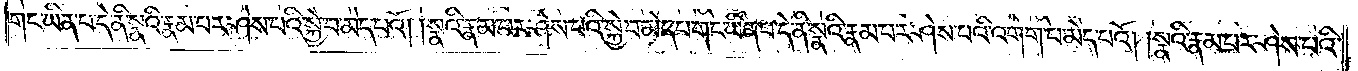གང་ཡིན་པ་དེ་ནི་སྣའི་རྣམ་པར་ཤེས་པའི་སྐྱེ་བ་མེད་པའོ། །སྣའི་རྣམ་པར་ཤེས་པའི་སྐྱེ་བ་མེད་པ་གང་ཡིན་པ་དེ་ནི་སྣའི་རྣམ་པར་ཤེས་པའི་འགག་པ་མེད་པའོ། །སྣའི་རྣམ་པར་ཤེས་པའི་
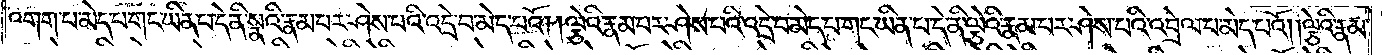འགག་པ་མེད་པ་གང་ཡིན་པ་དེ་ནི་སྣའི་རྣམ་པར་ཤེས་པའི་འདྲེ་བ་མེད་པའོ། །ལྕེའི་རྣམ་པར་ཤེས་པའི་འདྲེ་བ་མེད་པ་གང་ཡིན་པ་དེ་ནི་ལྕེའི་རྣམ་པར་ཤེས་པའི་འབྲེལ་པ་མེད་པའོ། །ལྕེའི་རྣམ་
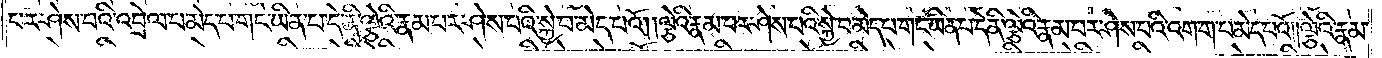པར་ཤེས་པའི་འབྲེལ་པ་མེད་པ་གང་ཡིན་པ་དེ་ནི་ལྕེའི་རྣམ་པར་ཤེས་པའི་སྐྱེ་བ་མེད་པའོ། །ལྕེའི་རྣམ་པར་ཤེས་པའི་སྐྱེ་བ་མེད་པ་གང་ཡིན་པ་དེ་ནི་ལྕེའི་རྣམ་པར་ཤེས་པའི་འགག་པ་མེད་པའོ། །ལྕེའི་རྣམ་
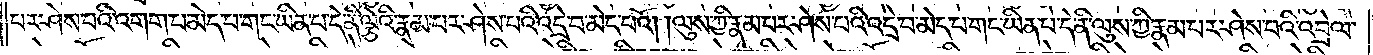པར་ཤེས་པའི་འགག་པ་མེད་པ་གང་ཡིན་པ་དེ་ནི་ལྕེའི་རྣམ་པར་ཤེས་པའི་འདྲེ་བ་མེད་པའོ། །ལུས་ཀྱི་རྣམ་པར་ཤེས་པའི་འདྲེ་བ་མེད་པ་གང་ཡིན་པ་དེ་ནི་ལུས་ཀྱི་རྣམ་པར་ཤེས་པའི་འབྲེལ་
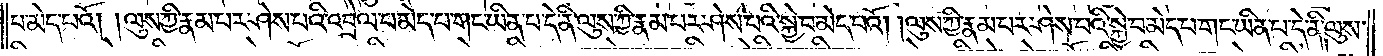པ་མེད་པའོ། །ལུས་ཀྱི་རྣམ་པར་ཤེས་པའི་འབྲེལ་བ་མེད་པ་གང་ཡིན་པ་དེ་ནི་ལུས་ཀྱི་རྣམ་པར་ཤེས་པའི་སྐྱེ་བ་མེད་པའོ། །ལུས་ཀྱི་རྣམ་པར་ཤེས་པའི་སྐྱེ་བ་མེད་པ་གང་ཡིན་པ་དེ་ནི་ལུས་
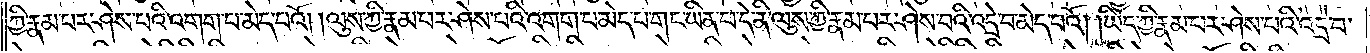ཀྱི་རྣམ་པར་ཤེས་པའི་འགག་པ་མེད་པའོ། །ལུས་ཀྱི་རྣམ་པར་ཤེས་པའི་འགག་པ་མེད་པ་གང་ཡིན་པ་དེ་ནི་ལུས་ཀྱི་རྣམ་པར་ཤེས་པའི་འདྲེ་བ་མེད་པའོ། །ཡིད་ཀྱི་རྣམ་པར་ཤེས་པའི་འདྲེ་བ་
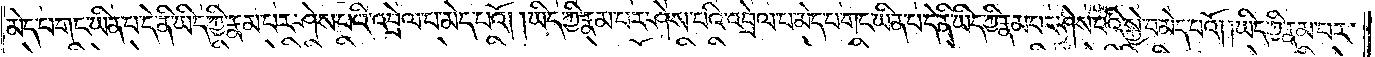མེད་པ་གང་ཡིན་པ་དེ་ནི་ཡིད་ཀྱི་རྣམ་པར་ཤེས་པའི་འབྲེལ་བ་མེད་པའོ། །ཡིད་ཀྱི་རྣམ་པར་ཤེས་པའི་འབྲེལ་བ་མེད་པ་གང་ཡིན་པ་དེ་ནི་ཡིད་ཀྱི་རྣམ་པར་ཤེས་པའི་སྐྱེ་བ་མེད་པའོ། །ཡིད་ཀྱི་རྣམ་པར་
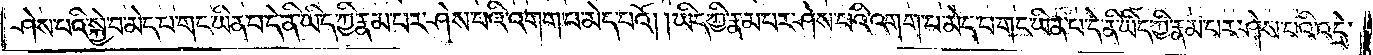ཤེས་པའི་སྐྱེ་བ་མེད་པ་གང་ཡིན་པ་དེ་ནི་ཡིད་ཀྱི་རྣམ་པར་ཤེས་པའི་འགག་པ་མེད་པའོ། །ཡིད་ཀྱི་རྣམ་པར་ཤེས་པའི་འགག་པ་མེད་པ་གང་ཡིན་པ་དེ་ནི་ཡིད་ཀྱི་རྣམ་པར་ཤེས་པའི་འདྲེ་
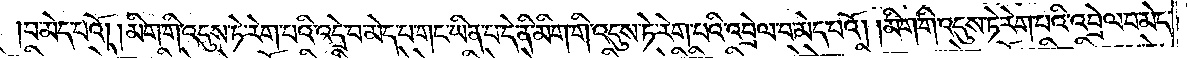བ་མེད་པའོ། །མིག་གི་འདུས་ཏེ་རེག་པའི་འདྲེ་བ་མེད་པ་གང་ཡིན་པ་དེ་ནི་མིག་གི་འདུས་ཏེ་རེག་པའི་འབྲེལ་བ་མེད་པའོ། །མིག་གི་འདུས་ཏེ་རེག་པའི་འབྲེལ་བ་མེད་
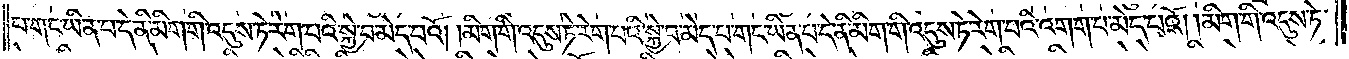པ་གང་ཡིན་པ་དེ་ནི་མིག་གི་འདུས་ཏེ་རེག་པའི་སྐྱེ་བ་མེད་པའོ། །མིག་གི་འདུས་ཏེ་རེག་པའི་སྐྱེ་བ་མེད་པ་གང་ཡིན་པ་དེ་ནི་མིག་གི་འདུས་ཏེ་རེག་པའི་འགག་པ་མེད་པའོ། །མིག་གི་འདུས་ཏེ་
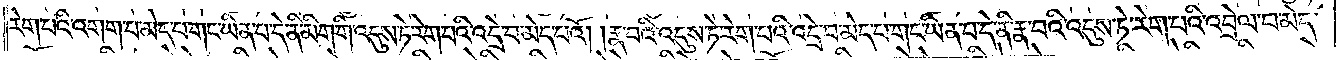རེག་པའི་འགག་པ་མེད་པ་གང་ཡིན་པ་དེ་ནི་མིག་གི་འདུས་ཏེ་རེག་པའི་འདྲེ་བ་མེད་པའོ། །རྣ་པའི་འདུས་ཏེ་རེག་པའི་འདྲེ་བ་མེད་པ་གང་ཡིན་པ་དེ་ནི་རྣ་བའི་འདུས་ཏེ་རེག་པའི་འབྲེལ་བ་མེད་
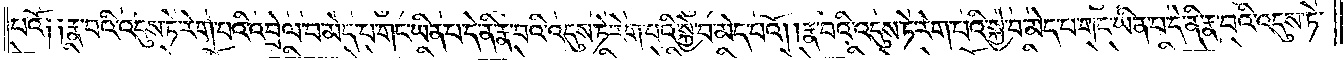པའོ། །རྣ་བའི་འདུས་ཏེ་རེག་པའི་འབྲེལ་བ་མེད་པ་གང་ཡིན་པ་དེ་ནི་རྣ་བའི་འདུས་ཏེ་རེག་པའི་སྐྱེ་བ་མེད་པའོ། །རྣ་བའི་འདུས་ཏེ་རེག་པའི་སྐྱེ་བ་མེད་པ་གང་ཡིན་པ་དེ་ནི་རྣ་བའི་འདུས་ཏེ་
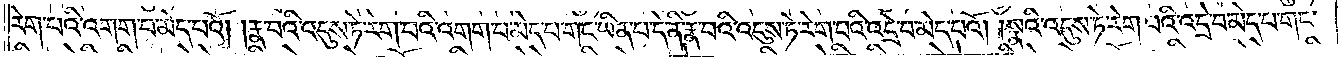རེག་པའི་འགག་པ་མེད་པའོ། །རྣ་བའི་འདུས་ཏེ་རེག་པའི་འགག་པ་མེད་པ་གང་ཡིན་པ་དེ་ནི་རྣ་བའི་འདུས་ཏེ་རེག་པའི་འདྲེ་བ་མེད་པའོ། །སྣའི་འདུས་ཏེ་རེག་པའི་འདྲེ་བ་མེད་པ་གང་
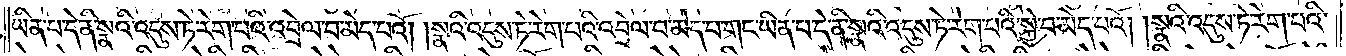ཡིན་པ་དེ་ནི་སྣའི་འདུས་ཏེ་རེག་པའི་འབྲེལ་བ་མེད་པའོ། །སྣའི་འདུས་ཏེ་རེག་པའི་འབྲེལ་བ་མེད་པ་གང་ཡིན་པ་དེ་ནི་སྣའི་འདུས་ཏེ་རེག་པའི་སྐྱེ་བ་མེད་པའོ། །སྣའི་འདུས་ཏེ་རེག་པའི་
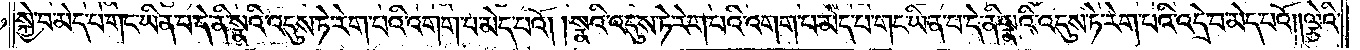སྐྱེ་བ་མེད་པ་གང་ཡིན་པ་དེ་ནི་སྣའི་འདུས་ཏེ་རེག་པའི་འགག་པ་མེད་པའོ། །སྣའི་འདུས་ཏེ་རེག་པའི་འགག་པ་མེད་པ་གང་ཡིན་པ་དེ་ནི་སྣའི་འདུས་ཏེ་རེག་པའི་འདྲེ་བ་མེད་པའོ། །ལྕེའི་
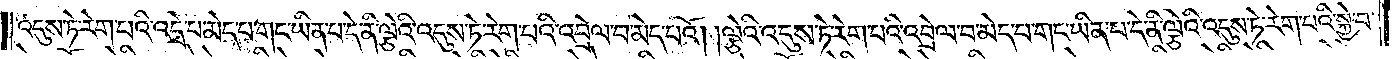འདུས་ཏེ་རེག་པའི་འདྲེ་བ་མེད་པ་གང་ཡིན་པ་དེ་ནི་ལྕེའི་འདུས་ཏེ་རེག་པའི་འབྲེལ་བ་མེད་པའོ། །ལྕེའི་འདུས་ཏེ་རེག་པའི་འབྲེལ་བ་མེད་པ་གང་ཡིན་པ་དེ་ནི་ལྕེའི་འདུས་ཏེ་རེག་པའི་སྐྱེ་བ་
